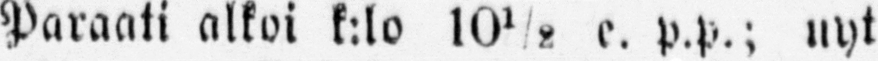Paraati alkoi k:lo 10½ e. p.p.; nyt
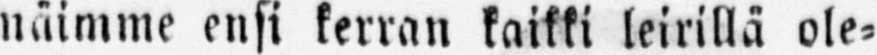näimme ensi kerran kaikki leirillä ole-
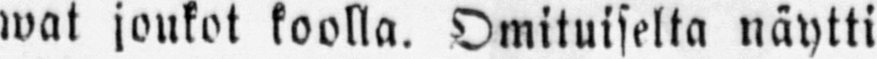wat joukot koolla. Omituiselta näytti
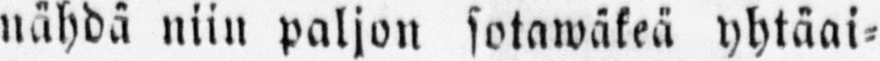nähdä niin paljon sotawäkeä yhtäai-
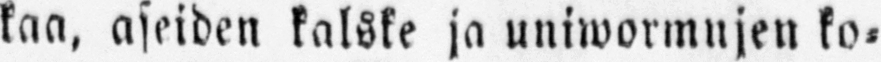kaa, aseiden kalske ja uniwormujen ko-
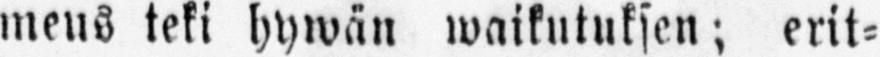meus teki hywän waikutuksen; erit-
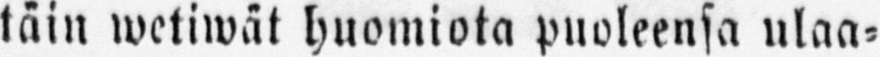täin wetiwät huomiota puoleensa ulaa-
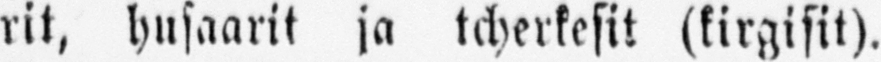rit, husaarit ja tcherkesit (kirgisit).
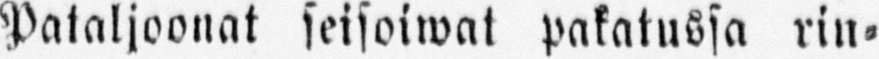Pataljoonat seisoiwat pakatussa rin-
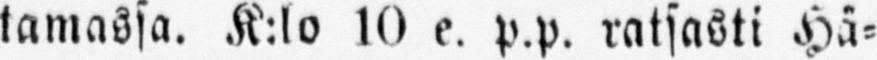tamassa. K:lo l0 e. p.p. ratsasti Hä-
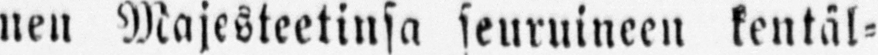nen Majesteetinsa seuruineen kentäl-
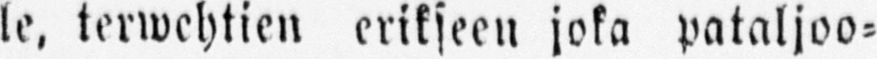le, terwehtien erikseen joka pataljoo-
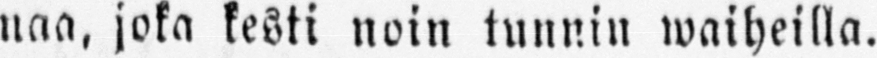naa, joka kesti noin tunnin waiheilla.
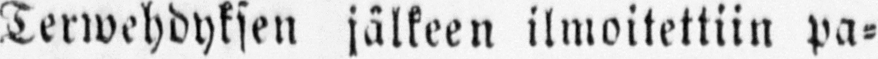Terwehdyksen jälkeen ilmoitettiin pa-
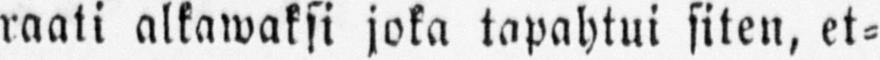raati alkawaksi joka tapahtui siten, et-
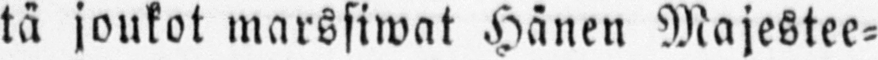tä joukot marssiwat Hänen Majestee-
